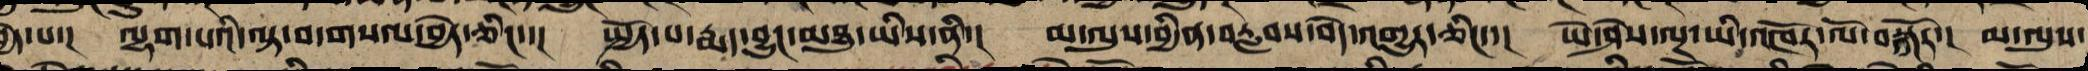བྱེད་པ་། ལྷག་པའི་ལྟ་བ་གསལ་བྱེད་ཅིང་་། སྤྱོད་པ་རྨད་བྱུང་མཐུ་ཡིས་ནི་། མ་ལུས་བྱིན་བརླབས་བདེ་འབྱུང་ཞིང་་། ཡེ་ཤེས་ལྔ་ཡི་འཁོར་ལོ་བསྐོར་། མ་ལུས་
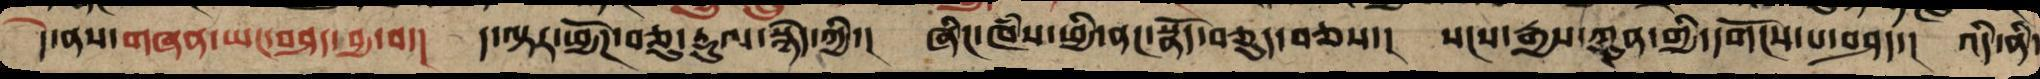དེ་ནས་གཞན་ཡང་བཤད་བྱ་བ་། ད་ལྟར་ཕྱོཌ་བཅུ་རྡུལ་སྙེད་ཀྱི་། ཞིང་ཁཾས་ཕྱི་ནང་སྣོད་བཅུད་བཅས་། སངས་རྒྱས་ཀུན་གྱི་དགོངས་པ་བཤད་། འདི་ནི་
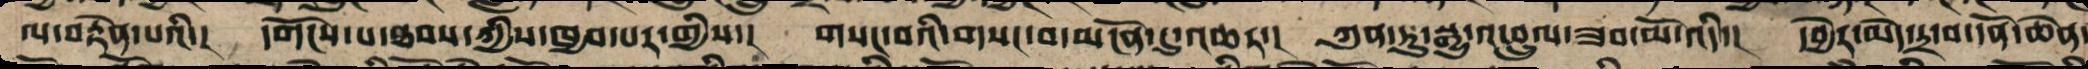ལ་བརྟེན་པའི་། དགོངས་པ་ཐབས་ཀྱིས་ཁྱབ་པར་གྱིས་། གསང་བའི་གསང་བ་མངོན་དུ་འཆར་། ཀུན་ཏུ་སྒྱུ་འཕྲུལ་ཟབ་མོ་འདི་། དབྱེར་མེད་དྲ་བ་དོན་ཆེན་
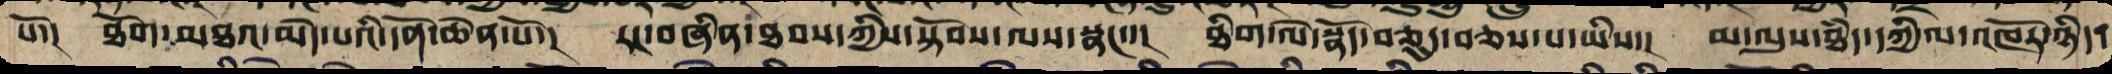པོ་། ཐོག་མཐའ་མེད་པའི་དོན་ཆེན་པོ་། རང་བཞིན་ཐབས་ཀྱིས་སྟོབས་ལས་སྣང་་། ཐིག་ལེ་སྣོད་བཅུད་བཅས་པ་ཡི་། མ་ལུས་ཐཾད་དཀྱིལ་འཁོར་ཉིད་
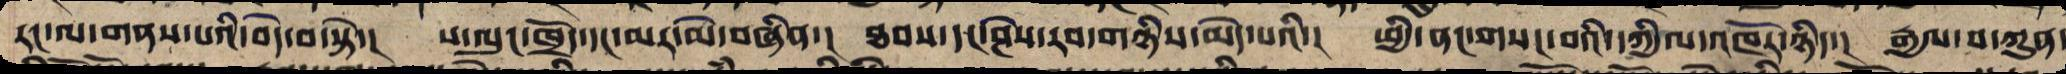རང་ལ་གནས་པའི་བདེ་བ་སྟེ་། ས་ལུང་ཁྲོད་དང་མར་མེ་བཞིན་། ཐབས་དང་ཤེས་རབ་གཉིས་མེད་པའི་། ཕྱི་ནང་གསང་བའི་དཀྱིལ་འཁོར་ཉིད་། རྒྱལ་བ་ཀུན་
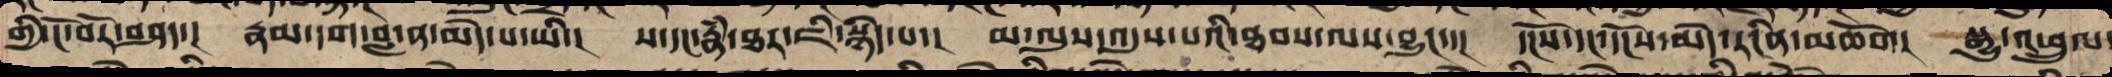གྱི་ངོ་བོར་བཤད་། རྣམ་དག་བླ་ན་མེད་པ་ཡི་། ས་དང་རྣཾ་ཐར་ཇི་སྙེད་པ་། མ་ལུས་འདུས་པའི་ཐབས་ལས་བྱུང་་། དངོས་དང་དངོས་མེད་རངིན་མཆོག། སྒྱུ་འཕྲུལ་
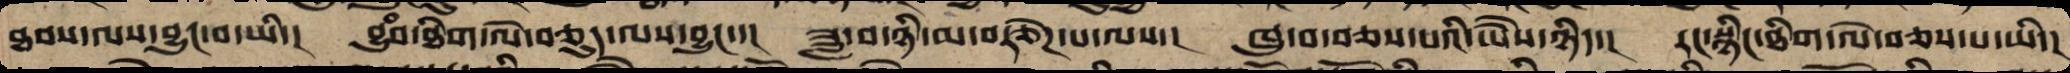ཐབས་ལས་བྱུང་བ་ཡི་། བྱུཾབ་ཐིག་ལེ་བཅུད་ལས་བྱུང་་། ཟླ་བ་ཉི་མ་བརྩེཌ་པ་ལས་། ཁུ་བ་བཅས་པའི་ཡཻས་ཉིད་། རང་སྙིང་ཐིག་ལེ་བཅས་པ་ཡི་།
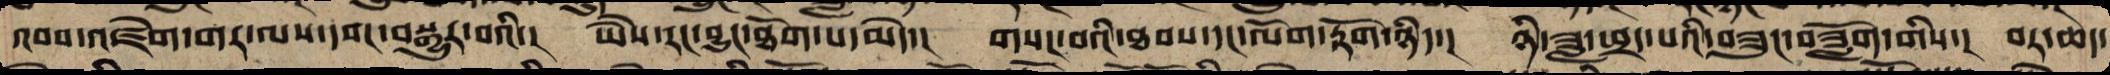འབབ་འཛེག་གར་ལས་དབང་བསྒྱུར་བའི་། ཡཻས་རང་བྱུང་ཐོགས་པ་མེད་། གསང་བའི་ཐབས་དང་ལོག་རྟོག་ཉིད་། ཉི་ཟླ་ཕྲད་པའི་བཟུང་བཟློག་གིས་། བར་ཆད་
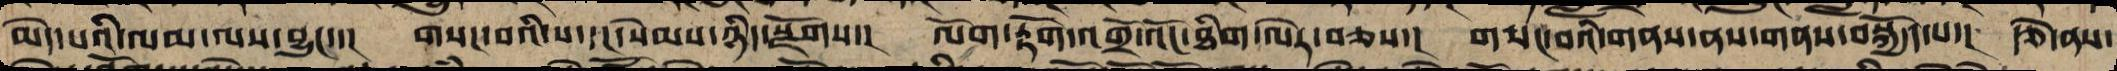མེད་པའི་ལམ་ལས་བྱུང་་། གསང་བའི་ས་དང་སེམས་ཉིད་སྫོགས་། ལོག་རྟོག་འགྲོ་འོང་ཐིག་ལེར་བཅས་། གསང་བའི་གནས་ནས་གནས་བསྐྱོད་པ་། རྩེ་ནས་
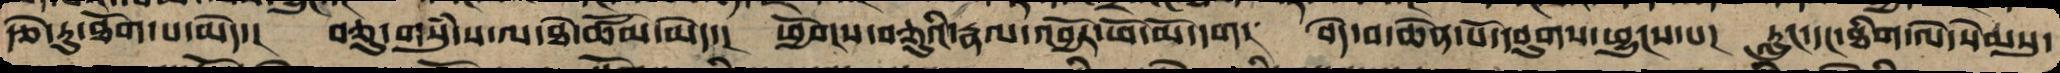རྩེ་རུ་ཐོགས་པ་མེད་། བཅུ་གསུཾ་ས་ལ་ཐེ་ཚོམ་མེད་། ཕྱོགས་བཅུའི་རྣལ་འབྱོར་ཕོ་མོ་དག། བདེ་བ་ཆེན་པོ་དབུགས་ཕྱུང་བས་། རླུང་དང་ཐིག་ལེ་སེམ་སུ་
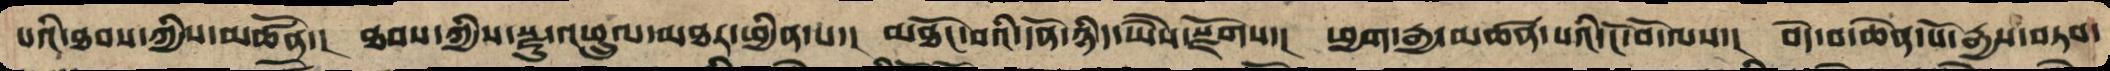པའི་ཐབས་ཀྱིས་མཚོན་། ཐབས་ཀྱིས་སྫུ་འཕྲུལ་མཐར་ཕྱིན་པ་། མཐོང་བའི་དོན་ཉིད་ཡཻས་སྫོགས་། ཕྱག་རྒྱ་མཚོན་པའི་ངོ་བོ་ལས་། བདེ་བ་ཆེན་པོ་རྒྱས་བཏབ་
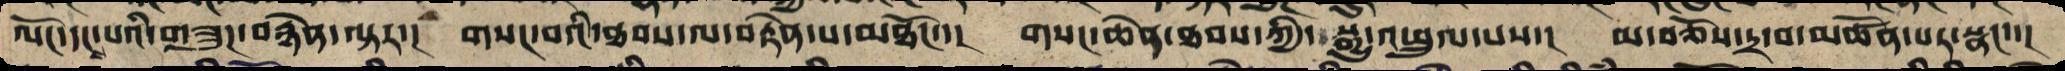ལོང་དང་པའི་གཟུཌ་བརྙེན་ལྟར་། གསང་བའི་ཐབས་ལ་བརྟེན་པ་མཐོང་་། གསང་ཆེན་ཐབས་ཀྱི་སྒྱུ་འཕྲུལ་པས་། མ་བཅོས་དྲ་བ་མཚོན་པར་སྣང་་།
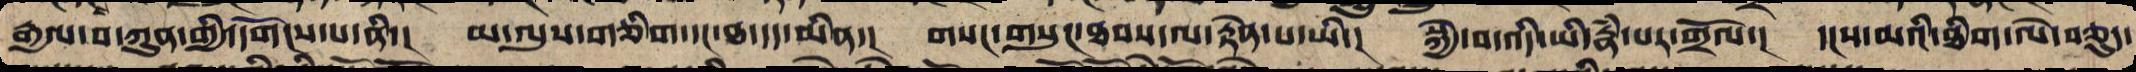རྒྱལ་བ་ཀུན་གྱི་དགོངས་པ་ནི་། མ་ལུས་གཅིག་དང་ཐ་དད་མིན་། གསང་གསུང་ཐབས་ལ་རྟེན་པ་ཡི་། སྐྱེ་བ་འདི་ཡི་རྣཾ་པར་གྲོལ་། དངས་མའི་ཐིག་ལེ་བཅུད་
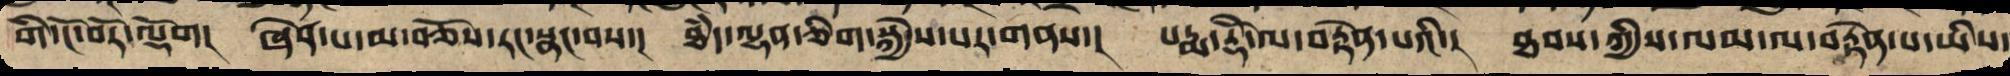གི་ངོ་བོར་ལྡོག། ཞེན་པ་མ་བཅོས་རང་སྣང་བས་། ཐཾད་ལྷན་ཅིག་སྐྱེས་པར་གསལ་། པདྨ་རྡོཻ་ལ་བརྟེན་པའི་། ཐབས་ཀྱིས་ལམ་ལ་བརྟེན་པ་ཡིས་
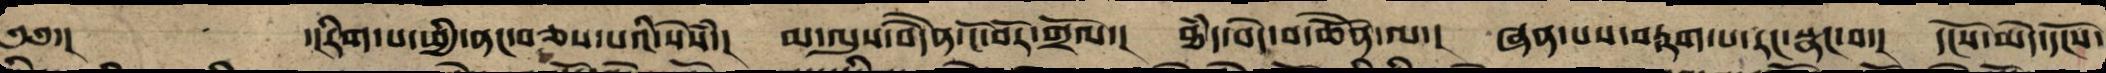༄༅་། ་།རིག་པ་ཕྱི་ནང་བཅས་པའི་སེཾས་། མ་ལུས་བདཻན་ངོ་བོར་གྲོལ་། ཐཾད་བདེ་བ་ཆེནོ་ལ་། ཞན་པས་བརྟག་པ་རང་སྣང་བ་། དངོས་མེད་དངོས་
